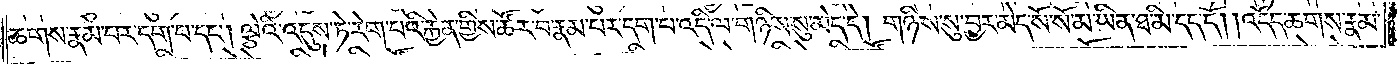ཆགས་རྣམ་པར་དག་པ་དང༌། ལྕེའི་འདུས་ཏེ་རེག་པའི་རྐྱེན་གྱིས་ཚོར་བ་རྣམ་པར་དག་པ་འདི་ལ་གཉིས་སུ་མེད་དེ། གཉིས་སུ་བྱར་མེད་སོ་སོ་མ་ཡིན་ཐ་མི་དད་དོ། །འདོད་ཆགས་རྣམ་
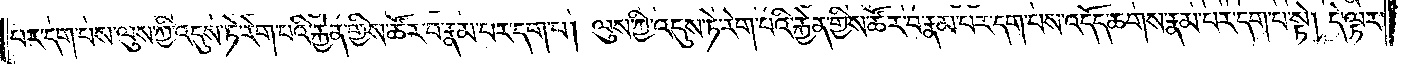པར་དག་པས་ལུས་ཀྱི་འདུས་ཏེ་རེག་པའི་རྐྱེན་གྱིས་ཚོར་བ་རྣམ་པར་དག་པ། ལུས་ཀྱི་འདུས་ཏེ་རེག་པའི་རྐྱེན་གྱིས་ཚོར་བ་རྣམ་པར་དག་པས་འདོད་ཆགས་རྣམ་པར་དག་པ་སྟེ། དེ་ལྟར་
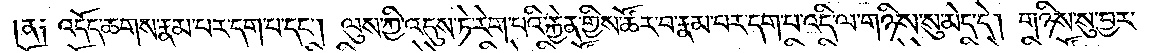ན༑ འདོད་ཆགས་རྣམ་པར་དག་པ་དང༌། ལུས་ཀྱི་འདུས་ཏེ་རེག་པའི་རྐྱེན་གྱིས་ཚོར་བ་རྣམ་པར་དག་པ་འདི་ལ་གཉིས་སུ་མེད་དེ། གཉིས་སུ་བྱར་
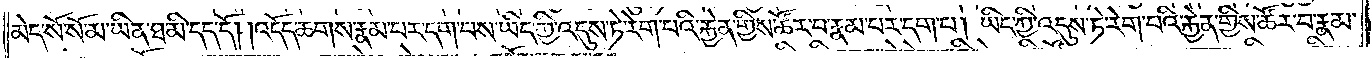མེད་སོ་སོ་མ་ཡིན་ཐ་མི་དད་དོ། །འདོད་ཆགས་རྣམ་པར་དག་པས་ཡིད་ཀྱི་འདུས་ཏེ་རེག་པའི་རྐྱེན་གྱིས་ཚོར་བ་རྣམ་པར་དག་པ། ཡིད་ཀྱི་འདུས་ཏེ་རེག་པའི་རྐྱེན་གྱིས་ཚོར་བ་རྣམ་
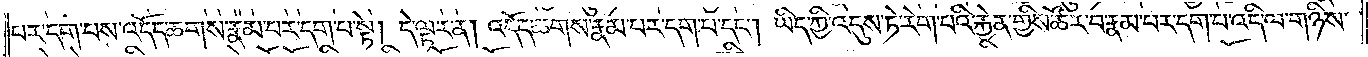པར་དག་པས་འདོད་ཆགས་རྣམ་པར་དག་པ་སྟེ། དེ་ལྟར་ན། འདོད་ཆགས་རྣམ་པར་དག་པ་དང༌། ཡིད་ཀྱི་འདུས་ཏེ་རེག་པའི་རྐྱེན་གྱིས་ཚོར་བ་རྣམ་པར་དག་པ་འདི་ལ་གཉིས་
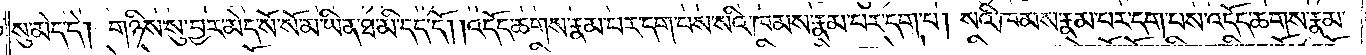སུ་མེད་དེ། གཉིས་སུ་བྱར་མེད་སོ་སོ་མ་ཡིན་ཐ་མི་དད་དོ། །འདོད་ཆགས་རྣམ་པར་དག་པས་སའི་ཁམས་རྣམ་པར་དག་པ། སའི་ཁམས་རྣམ་པར་དག་པས་འདོད་ཆགས་རྣམ་
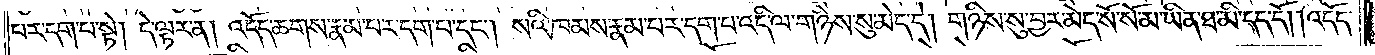པར་དག་པ་སྟེ། དེ་ལྟར་ན། འདོད་ཆགས་རྣམ་པར་དག་པ་དང༌། སའི་ཁམས་རྣམ་པར་དག་པ་འདི་ལ་གཉིས་སུ་མེད་དེ། གཉིས་སུ་བྱར་མེད་སོ་སོ་མ་ཡིན་ཐ་མི་དད་དོ། །འདོད་
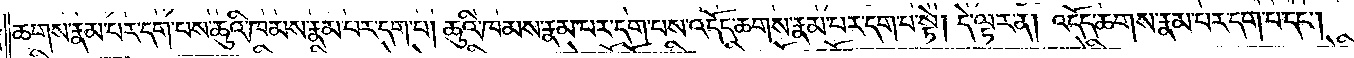ཆགས་རྣམ་པར་དག་པས་ཆུའི་ཁམས་རྣམ་པར་དག་པ། ཆུའི་ཁམས་རྣམ་པར་དག་པས་འདོད་ཆགས་རྣམ་པར་དག་པ་སྟེ། དེ་ལྟར་ན། འདོད་ཆགས་རྣམ་པར་དག་པ་དང༌།
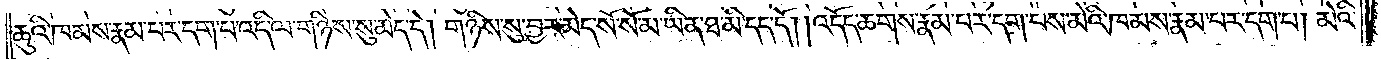ཆུའི་ཁམས་རྣམ་པར་དག་པ་འདི་ལ་གཉིས་སུ་མེད་དེ། གཉིས་སུ་བྱར་མེད་སོ་སོ་མ་ཡིན་ཐ་མི་དད་དོ། །འདོད་ཆགས་རྣམ་པར་དག་པས་མེའི་ཁམས་རྣམ་པར་དག་པ། མེའི་
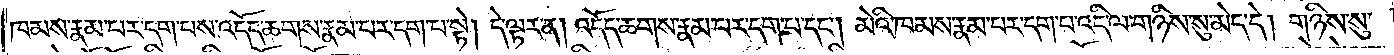ཁམས་རྣམ་པར་དག་པས་འདོད་ཆགས་རྣམ་པར་དག་པ་སྟེ། དེ་ལྟར་ན། འདོད་ཆགས་རྣམ་པར་དག་པ་དང༌། མེའི་ཁམས་རྣམ་པར་དག་པ་འདི་ལ་གཉིས་སུ་མེད་དེ། གཉིས་སུ་
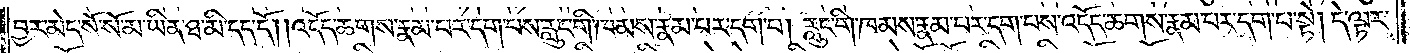བྱར་མེད་སོ་སོ་མ་ཡིན་ཐ་མི་དད་དོ། །འདོད་ཆགས་རྣམ་པར་དག་པས་རླུང་གི་ཁམས་རྣམ་པར་དག་པ། རླུང་གི་ཁམས་རྣམ་པར་དག་པས་འདོད་ཆགས་རྣམ་པར་དག་པ་སྟེ། དེ་ལྟར་
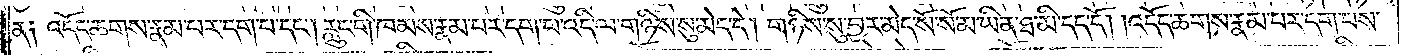ན༑ འདོད་ཆགས་རྣམ་པར་དག་པ་དང༌། རླུང་གི་ཁམས་རྣམ་པར་དག་པ་འདི་ལ་གཉིས་སུ་མེད་དེ། གཉིས་སུ་བྱར་མེད་སོ་སོ་མ་ཡིན་ཐ་མི་དད་དོ། །འདོད་ཆགས་རྣམ་པར་དག་པས་
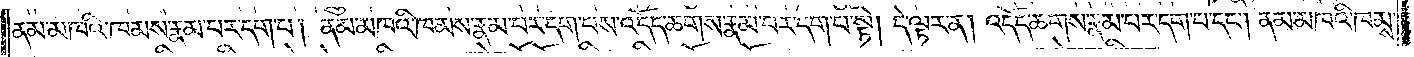ནམ་མཁའི་ཁམས་རྣམ་པར་དག་པ། ནམ་མཁའི་ཁམས་རྣམ་པར་དག་པས་འདོད་ཆགས་རྣམ་པར་དག་པ་སྟེ། དེ་ལྟར་ན། འདོད་ཆགས་རྣམ་པར་དག་པ་དང༌། ནམ་མཁའི་ཁམས་
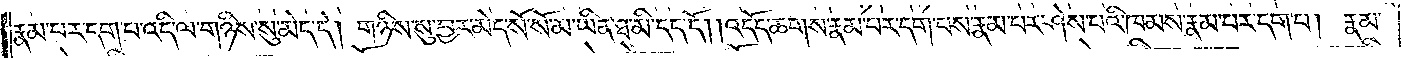རྣམ་པར་དག་པ་འདི་ལ་གཉིས་སུ་མེད་དེ། གཉིས་སུ་བྱར་མེད་སོ་སོ་མ་ཡིན་ཐ་མི་དད་དོ། །འདོད་ཆགས་རྣམ་པར་དག་པས་རྣམ་པར་ཤེས་པའི་ཁམས་རྣམ་པར་དག་པ། རྣམ་
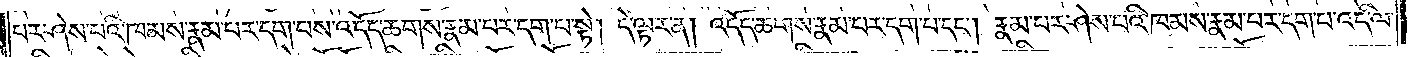པར་ཤེས་པའི་ཁམས་རྣམ་པར་དག་པས་འདོད་ཆགས་རྣམ་པར་དག་པ་སྟེ། དེ་ལྟར་ན། འདོད་ཆགས་རྣམ་པར་དག་པ་དང༌། རྣམ་པར་ཤེས་པའི་ཁམས་རྣམ་པར་དག་པ་འདི་ལ་
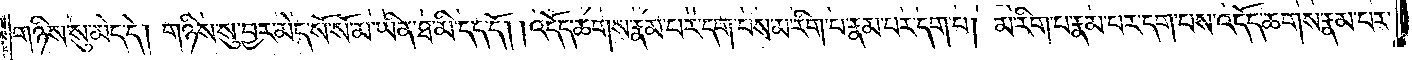གཉིས་སུ་མེད་དེ། གཉིས་སུ་བྱར་མེད་སོ་སོ་མ་ཡིན་ཐ་མི་དད་དོ། །འདོད་ཆགས་རྣམ་པར་དག་པས་མ་རིག་པ་རྣམ་པར་དག་པ། མ་རིག་པ་རྣམ་པར་དག་པས་འདོད་ཆགས་རྣམ་པར་
